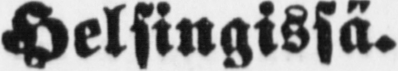Helsingissä.
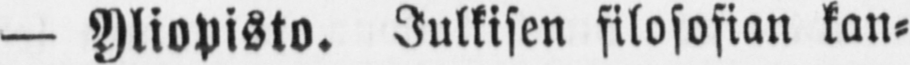— Yliopisto. Julkisen filosofian kan-
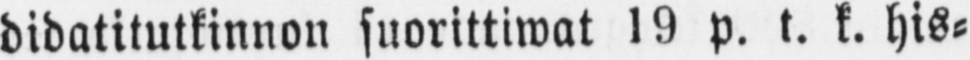didatitutkinnon suorittiwat 19 p. t. k. his-
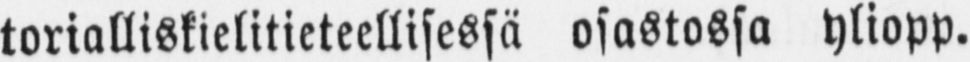torialliskielitieteellisessä osastossa yliopp.
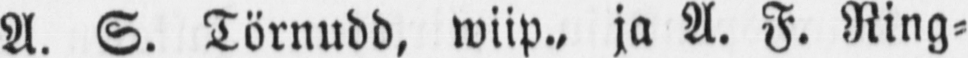A. S. Törnudd, wiip., ja A. F. Ring-
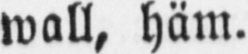wall, häm.
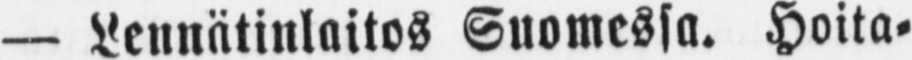— Lennätinlaitos Suomessa. Hoita-
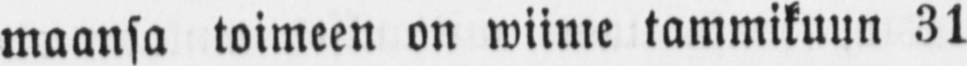maansa toimeen on wiime tammikuun 31
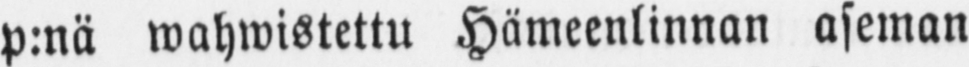p:nä wahwistettu Hämeenlinnan aseman
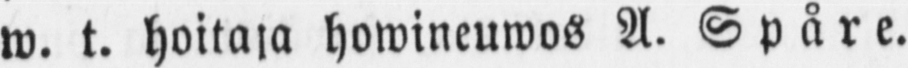w. t. hoitaja howineuwos A. Spåre.
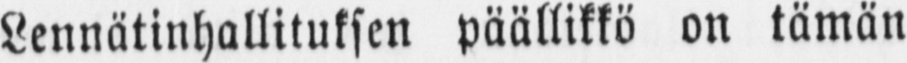Lennätinhallituksen päällikkö on tämän
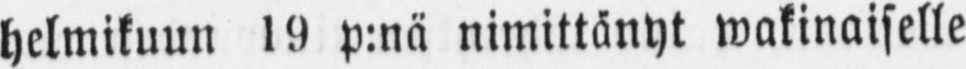helmikuun 19 p:nä nimittänyt wakinaiselle
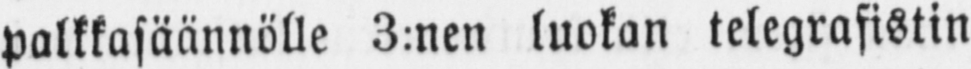palkkasäännölle 3:nen luokan telegrafistin
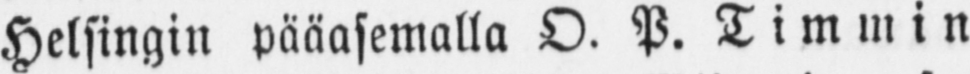Helsingin pääasemalla O. P. T immin
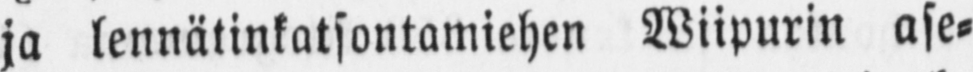ja lennätinkatsontamiehen Wiipurin ase-
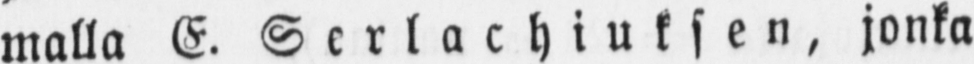malla E. Serlachiuksen, jonka
